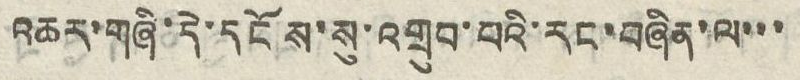འཆར་གཞི་དེ་དངོས་སུ་འགྲུབ་པའི་རང་བཞིན་ལ་་་
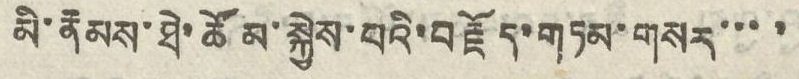མི་རྣམས་ཐེ་ཚོམ་སྐྱེས་པའི་བརྗོད་གཏམ་གསར་་་་
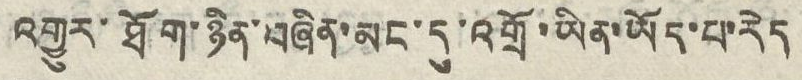འགྱུར་ཐོག་བཞིན་མང་དུ་འགྲོ་ཡིན་ཡོད་པ་རེད
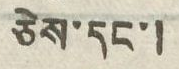ཅེས་དང་།
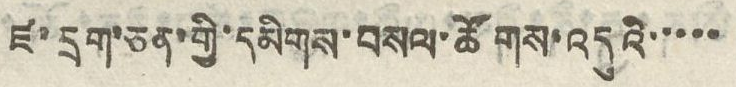ཛ་དྲག་ཅན་གྱི་དམིགས་བསལ་ཚོགས་འདུའི་་་་་
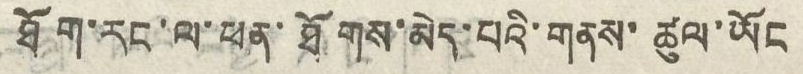ཐོག་རང་ལ་ཕན་ཐོགས་མེད་པའི་གནས་ཚུལ་ཡོང
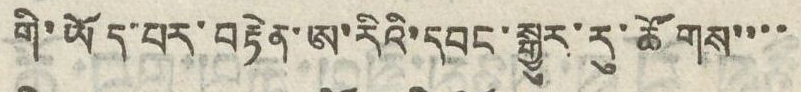གི་ཡོད་པར་བརྟེན་ཨ་རིའི་དབང་སྒྱུར་རུ་ཚོགས་་་་
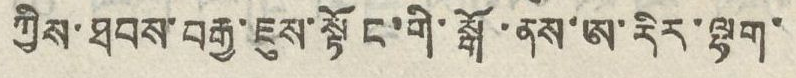ཀྱིས་ཐབས་བརྒྱ་ཇུས་སྟོང་གི་སྒོ་ནས་ཨ་རིར་ལྷག་
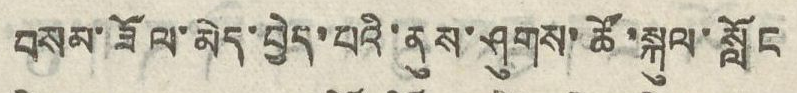བསམ་ཟོལ་མེད་བྱེད་པའི་ནུས་ཤུགས་ཚོ་སྐུལ་སློང
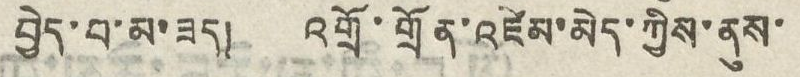བྱེད་པ་མ་ཟད། འགྲོ་གྲོན་འཛེམ་མེད་ཀྱིས་ནུས་
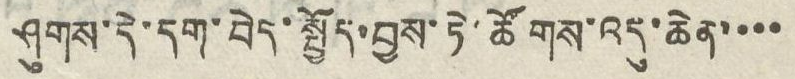ཤུགས་དེ་དག་བེད་སྤྱོད་བྱས་ཏེ་ཚོགས་འདུ་ཆེན་་་་
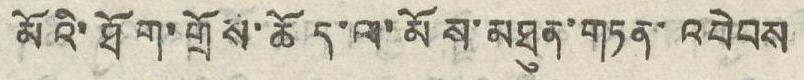མོའི་ཐོག་གྲོས་ཆོད་ལ་མོས་མཐུན་གཏན་འབེབས
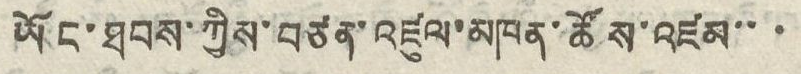ཡོང་ཐབས་ཀྱིས་བཙན་འཛུལ་མཁན་ཚོས་འཛམ་་་
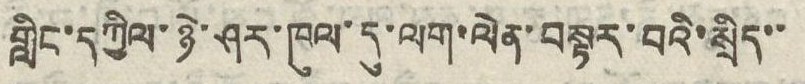གླིང་དཀྱིལ་ཉེ་ཤར་ཁུལ་དུ་ལག་ལེན་བསྟར་བའི་སྲིད་་
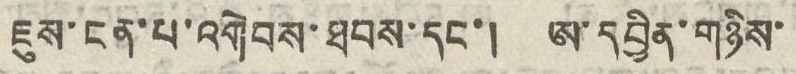ཇུས་ངན་པ་འགེབས་ཐབས་དང་། ཨ་དབྱིན་གཉིས་
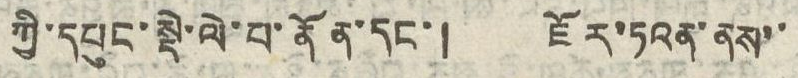ཀྱི་དཔུང་སྡེ་ལེ་པ་ནོན་དང་། ཇོར་ཏའན་ནས་་
